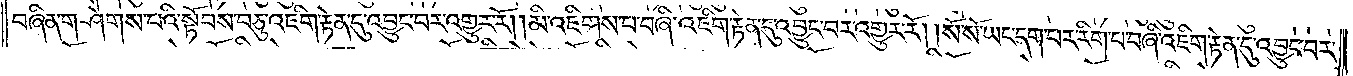བཞིན་གཤེགས་པའི་སྟོབས་བཅུ་འཇིག་རྟེན་དུ་འབྱུང་བར་འགྱུར་རོ། །མི་འཇིགས་པ་བཞི་འཇིག་རྟེན་དུ་འབྱུང་བར་འགྱུར་རོ། །སོ་སོ་ཡང་དག་པར་རིག་པ་བཞི་འཇིག་རྟེན་དུ་འབྱུང་བར་
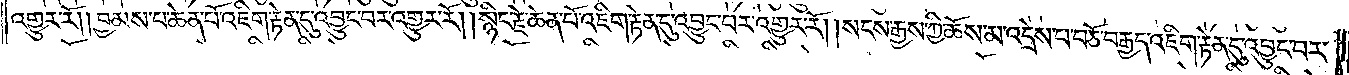འགྱུར་རོ། །བྱམས་པ་ཆེན་པོ་འཇིག་རྟེན་དུ་འབྱུང་བར་འགྱུར་རོ། །སྙིང་རྗེ་ཆེན་པོ་འཇིག་རྟེན་དུ་འབྱུང་བར་འགྱུར་རོ། །སངས་རྒྱས་ཀྱི་ཆོས་མ་འདྲེས་པ་བཅོ་བརྒྱད་འཇིག་རྟེན་དུ་འབྱུང་བར་
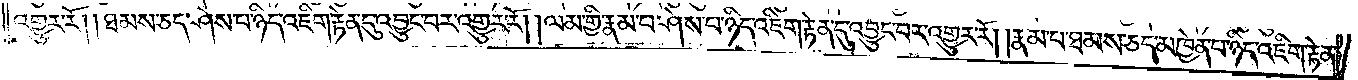འགྱུར་རོ། །ཐམས་ཅད་ཤེས་པ་ཉིད་འཇིག་རྟེན་དུ་འབྱུང་བར་འགྱུར་རོ། །ལམ་གྱི་རྣམ་པ་ཤེས་པ་ཉིད་འཇིག་རྟེན་དུ་འབྱུང་བར་འགྱུར་རོ། །རྣམ་པ་ཐམས་ཅད་མཁྱེན་པ་ཉིད་འཇིག་རྟེན་
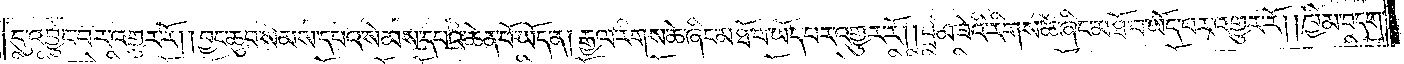དུ་འབྱུང་བར་འགྱུར་རོ། །བྱང་ཆུབ་སེམས་དཔའ་སེམས་དཔའ་ཆེན་པོ་ཡོད་ན། རྒྱལ་རིགས་ཆེ་ཞིང་མཐོ་བ་ཡོད་པར་འགྱུར་རོ། །བྲམ་ཟའི་རིགས་ཆེ་ཞིང་མཐོ་བ་ཡོད་པར་འགྱུར་རོ། །ཁྱིམ་བདག་
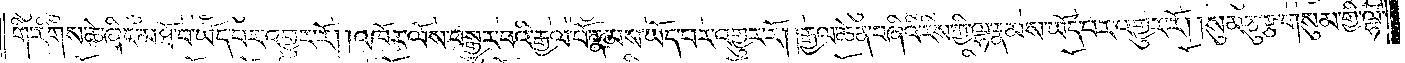གི་རིགས་ཆེ་ཞིང་མཐོ་བ་ཡོད་པར་འགྱུར་རོ། །འཁོར་ལོས་སྒྱུར་བའི་རྒྱལ་པོ་རྣམས་ཡོད་པར་འགྱུར་རོ། །རྒྱལ་ཆེན་བཞིའི་རིས་ཀྱི་ལྷ་རྣམས་ཡོད་པར་འགྱུར་རོ། །སུམ་ཅུ་རྩ་གསུམ་གྱི་ལྷ་
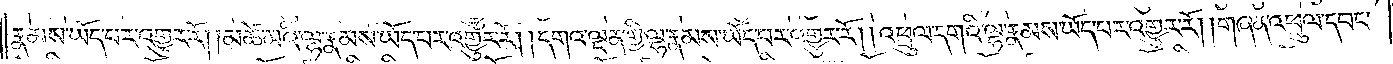རྣམས་ཡོད་པར་འགྱུར་རོ། །མཚེ་མའི་ལྷ་རྣམས་ཡོད་པར་འགྱུར་རོ། །དགའ་ལྡན་གྱི་ལྷ་རྣམས་ཡོད་པར་འགྱུར་རོ། །འཕྲུལ་དགའི་ལྷ་རྣམས་ཡོད་པར་འགྱུར་རོ། །གཞན་འཕྲུལ་དབང་
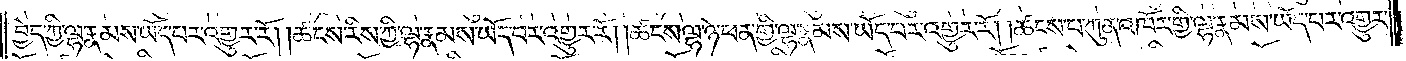བྱེད་ཀྱི་ལྷ་རྣམས་ཡོད་པར་འགྱུར་རོ། །ཚངས་རིས་ཀྱི་ལྷ་རྣམས་ཡོད་པར་འགྱུར་རོ། །ཚངས་ལྷ་ཉེ་ཕན་གྱི་ལྷ་རྣམས་ཡོད་པར་འགྱུར་རོ། །ཚངས་པ་ཀུན་འཁོར་གྱི་ལྷ་རྣམས་ཡོད་པར་འགྱུར་
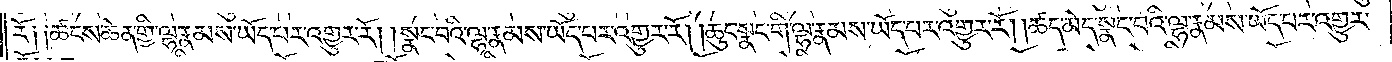རོ། །ཚངས་ཆེན་གྱི་ལྷ་རྣམས་ཡོད་པར་འགྱུར་རོ། །སྣང་བའི་ལྷ་རྣམས་ཡོད་པར་འགྱུར་རོ། །ཆུང་སྣང་གི་ལྷ་རྣམས་ཡོད་པར་འགྱུར་རོ། །ཚད་མེད་སྣང་བའི་ལྷ་རྣམས་ཡོད་པར་འགྱུར་
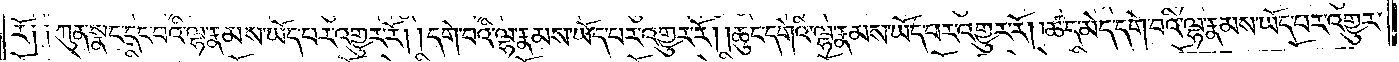རོ། །ཀུན་སྣང་དང་བའི་ལྷ་རྣམས་ཡོད་པར་འགྱུར་རོ། །དགེ་བའི་ལྷ་རྣམས་ཡོད་པར་འགྱུར་རོ། །ཆུང་དགེའི་ལྷ་རྣམས་ཡོད་པར་འགྱུར་རོ། །ཚད་མེད་དགེ་བའི་ལྷ་རྣམས་ཡོད་པར་འགྱུར་
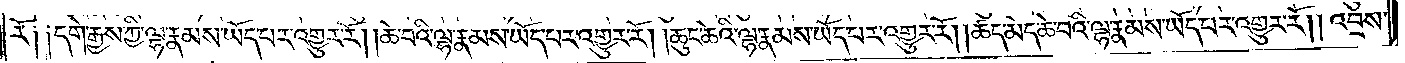རོ༑ ༑དགེ་རྒྱས་ཀྱི་ལྷ་རྣམས་ཡོད་པར་འགྱུར་རོ། །ཆེ་བའི་ལྷ་རྣམས་ཡོད་པར་འགྱུར་རོ། །ཆུང་ཆེའི་ལྷ་རྣམས་ཡོད་པར་འགྱུར་རོ། །ཚད་མེད་ཆེ་བའི་ལྷ་རྣམས་ཡོད་པར་འགྱུར་རོ། །འབྲས་
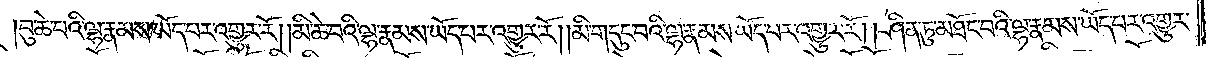བུ་ཆེ་བའི་ལྷ་རྣམས་ཡོད་པར་འགྱུར་རོ། །མི་ཆེ་བའི་ལྷ་རྣམས་ཡོད་པར་འགྱུར་རོ། །མི་གདུང་བའི་ལྷ་རྣམས་ཡོད་པར་འགྱུར་རོ། །ཤིན་ཏུ་མཐོང་བའི་ལྷ་རྣམས་ཡོད་པར་འགྱུར་
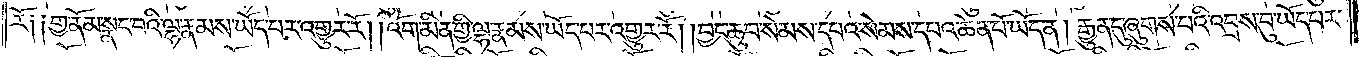རོ༑ ༑གྱ་ནོམ་སྣང་བའི་ལྷ་རྣམས་ཡོད་པར་འགྱུར་རོ། །འོག་མིན་གྱི་ལྷ་རྣམས་ཡོད་པར་འགྱུར་རོ། །བྱང་ཆུབ་སེམས་དཔའ་སེམས་དཔའ་ཆེན་པོ་ཡོད་ན། རྒྱུན་དུ་ཞུགས་པའི་འབྲས་བུ་ཡོད་པར་
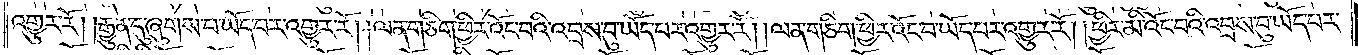འགྱུར་རོ། །རྒྱུན་དུ་ཞུགས་པ་ཡོད་པར་འགྱུར་རོ། །ལན་གཅིག་ཕྱིར་འོང་བའི་འབྲས་བུ་ཡོད་པར་འགྱུར་རོ། །ལན་གཅིག་ཕྱིར་འོང་བ་ཡོད་པར་འགྱུར་རོ། །ཕྱིར་མི་འོང་བའི་འབྲས་བུ་ཡོད་པར་
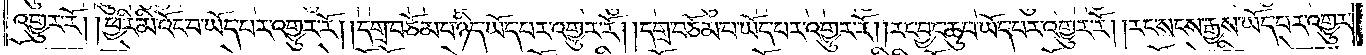འགྱུར་རོ། །ཕྱིར་མི་འོང་བ་ཡོད་པར་འགྱུར་རོ། །དགྲ་བཅོམ་པ་ཉིད་ཡོད་པར་འགྱུར་རོ། །དགྲ་བཅོམ་པ་ཡོད་པར་འགྱུར་རོ། །རང་བྱང་ཆུབ་ཡོད་པར་འགྱུར་རོ། །རང་སངས་རྒྱས་ཡོད་པར་འགྱུར་
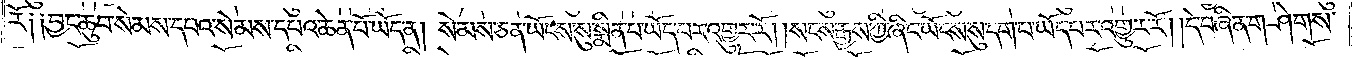རོ༑ ༑བྱང་ཆུབ་སེམས་དཔའ་སེམས་དཔའ་ཆེན་པོ་ཡོད་ན། སེམས་ཅན་ཡོངས་སུ་སྨིན་པ་ཡོད་པར་འགྱུར་རོ། །སངས་རྒྱས་ཀྱི་ཞིང་ཡོངས་སུ་དག་པ་ཡོད་པར་འགྱུར་རོ། །དེ་བཞིན་གཤེགས་
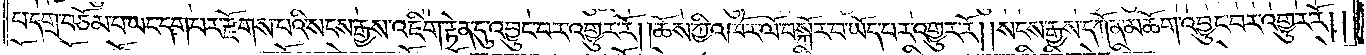པ་དགྲ་བཅོམ་པ་ཡང་དག་པར་རྫོགས་པའི་སངས་རྒྱས་འཇིག་རྟེན་དུ་འབྱུང་བར་འགྱུར་རོ། །ཆོས་ཀྱི་འཁོར་ལོ་བསྐོར་བ་ཡོད་པར་འགྱུར་རོ། །སངས་རྒྱས་དཀོན་མཆོག་འབྱུང་བར་འགྱུར་རོ། །
